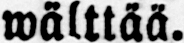wälttää.
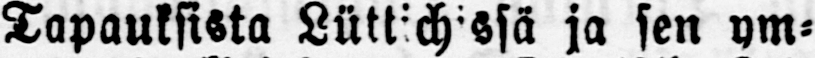Tapauksista Lüttichissä ja sen ym-
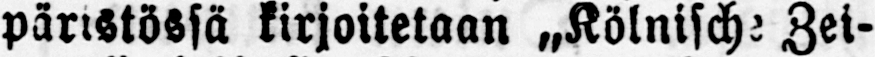päristössä kirjoitetaan „Kölnische Zei-
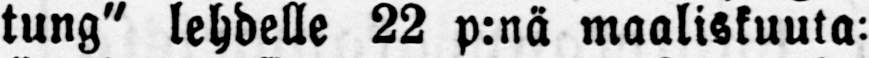tung" lehdelle 22 p:nä maaliskuuta:
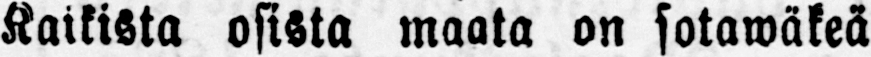Kaikista osista maata on sotawäkeä
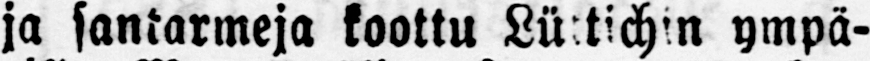ja santarmeja koottu Lüttichin ympä-
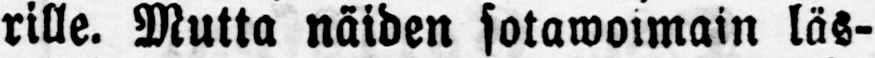rille. Mutta näiden sotawoimain läs-
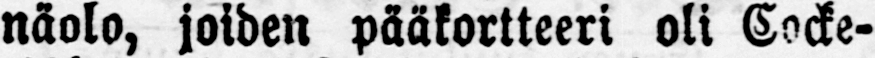näolo, joiden pääkortteeri oli Cocke-
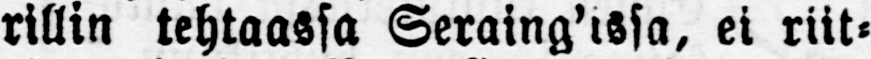rillin tehtaassa Seraing'ssa, ei riit-
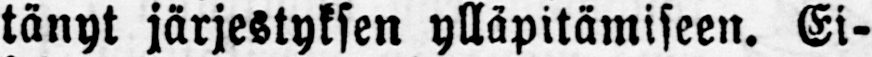tänyt järjestyksen ylläpitämiseen. Ei-
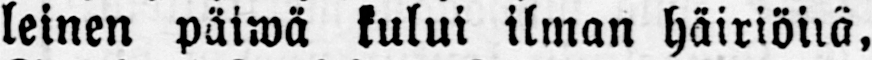leinen päiwä kului ilman häiriönä,
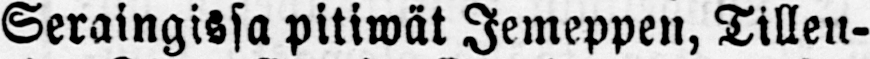Seraingissa pitiwät Jemeppen, Tillen-
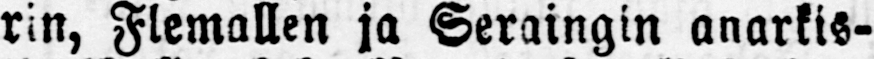rin, Flemallen ja Seraingin anarkis-
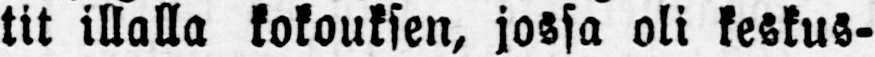tit illalla kokouksen, jossa oli keskus-
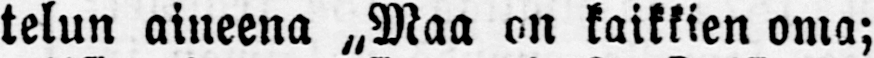telun aineena „Maa on kaikkien oma;
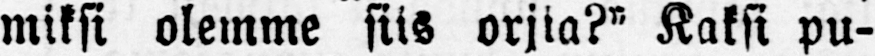miksi olemme siis orjia?" Kaksi pu-
